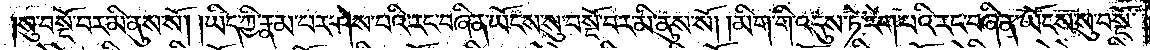སུ་བསྔོ་བར་མི་ནུས་སོ། །ཡིད་ཀྱི་རྣམ་པར་ཤེས་པའི་རང་བཞིན་ཡོངས་སུ་བསྔོ་བར་མི་ནུས་སོ། །མིག་གི་འདུས་ཏེ་རེག་པའི་རང་བཞིན་ཡོངས་སུ་བསྔོ་
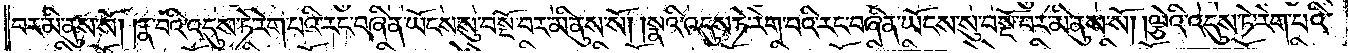བར་མི་ནུས་སོ། །རྣ་བའི་འདུས་ཏེ་རེག་པའི་རང་བཞིན་ཡོངས་སུ་བསྔོ་བར་མི་ནུས་སོ། །སྣའི་འདུས་ཏེ་རེག་པའི་རང་བཞིན་ཡོངས་སུ་བསྔོ་བར་མི་ནུས་སོ། །ལྕེའི་འདུས་ཏེ་རེག་པའི་
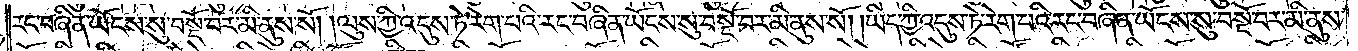རང་བཞིན་ཡོངས་སུ་བསྔོ་བར་མི་ནུས་སོ། །ལུས་ཀྱི་འདུས་ཏེ་རེག་པའི་རང་བཞིན་ཡོངས་སུ་བསྔོ་བར་མི་ནུས་སོ། །ཡིད་ཀྱི་འདུས་ཏེ་རེག་པའི་རང་བཞིན་ཡོངས་སུ་བསྔོ་བར་མི་ནུས་
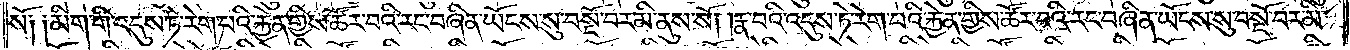སོ༑ ༑མིག་གི་འདུས་ཏེ་རེག་པའི་རྐྱེན་གྱིས་ཚོར་བའི་རང་བཞིན་ཡོངས་སུ་བསྔོ་བར་མི་ནུས་སོ། །རྣ་བའི་འདུས་ཏེ་རེག་པའི་རྐྱེན་གྱིས་ཚོར་བའི་རང་བཞིན་ཡོངས་སུ་བསྔོ་བར་མི་
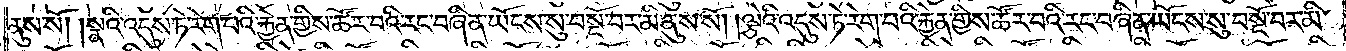ནུས་སོ། །སྣའི་འདུས་ཏེ་རེག་པའི་རྐྱེན་གྱིས་ཚོར་བའི་རང་བཞིན་ཡོངས་སུ་བསྔོ་བར་མི་ནུས་སོ། །ལྕེའི་འདུས་ཏེ་རེག་པའི་རྐྱེན་གྱིས་ཚོར་བའི་རང་བཞིན་ཡོངས་སུ་བསྔོ་བར་མི་
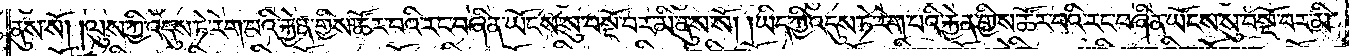ནུས་སོ། །ལུས་ཀྱི་འདུས་ཏེ་རེག་པའི་རྐྱེན་གྱིས་ཚོར་བའི་རང་བཞིན་ཡོངས་སུ་བསྔོ་བར་མི་ནུས་སོ། །ཡིད་ཀྱི་འདུས་ཏེ་རེག་པའི་རྐྱེན་གྱིས་ཚོར་བའི་རང་བཞིན་ཡོངས་སུ་བསྔོ་བར་མི་
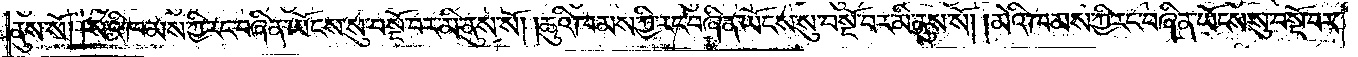ནུས་སོ། །སའི་ཁམས་ཀྱི་རང་བཞིན་ཡོངས་སུ་བསྔོ་བར་མི་ནུས་སོ། །ཆུའི་ཁམས་ཀྱི་རང་བཞིན་ཡོངས་སུ་བསྔོ་བར་མི་ནུས་སོ། །མེའི་ཁམས་ཀྱི་རང་བཞིན་ཡོངས་སུ་བསྔོ་བར་
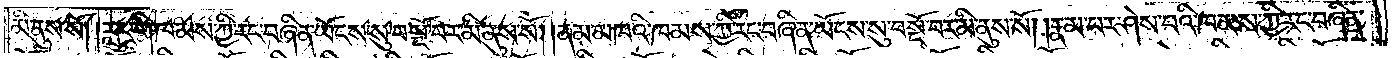མི་ནུས་སོ། །རླུང་གི་ཁམས་ཀྱི་རང་བཞིན་ཡོངས་སུ་བསྔོ་བར་མི་ནུས་སོ། །ནམ་མཁའི་ཁམས་ཀྱི་རང་བཞིན་ཡོངས་སུ་བསྔོ་བར་མི་ནུས་སོ། །རྣམ་པར་ཤེས་པའི་ཁམས་ཀྱི་རང་བཞིན་
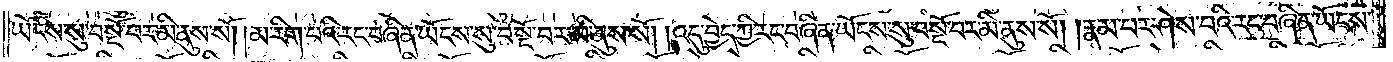ཡོངས་སུ་བསྔོ་བར་མི་ནུས་སོ། །མ་རིག་པའི་རང་བཞིན་ཡོངས་སུ་བསྔོ་བར་མི་ནུས་སོ། །འདུ་བྱེད་ཀྱི་རང་བཞིན་ཡོངས་སུ་བསྔོ་བར་མི་ནུས་སོ། །རྣམ་པར་ཤེས་པའི་རང་བཞིན་ཡོངས་
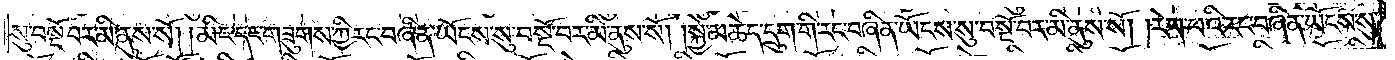སུ་བསྔོ་བར་མི་ནུས་སོ། །མིང་དང་གཟུགས་ཀྱི་རང་བཞིན་ཡོངས་སུ་བསྔོ་བར་མི་ནུས་སོ། །སྐྱེ་མཆེད་དྲུག་གི་རང་བཞིན་ཡོངས་སུ་བསྔོ་བར་མི་ནུས་སོ། །རེག་པའི་རང་བཞིན་ཡོངས་སུ་
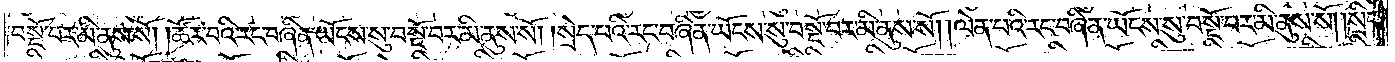བསྔོ་བར་མི་ནུས་སོ། །ཚོར་བའི་རང་བཞིན་ཡོངས་སུ་བསྔོ་བར་མི་ནུས་སོ། །སྲེད་པའི་རང་བཞིན་ཡོངས་སུ་བསྔོ་བར་མི་ནུས་སོ། །ལེན་པའི་རང་བཞིན་ཡོངས་སུ་བསྔོ་བར་མི་ནུས་སོ། །སྲིད་
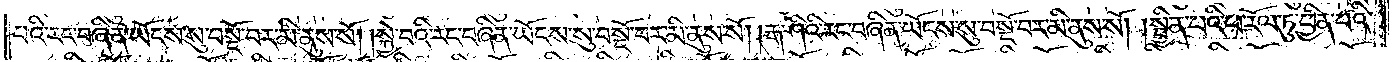པའི་རང་བཞིན་ཡོངས་སུ་བསྔོ་བར་མི་ནུས་སོ། །སྐྱེ་བའི་རང་བཞིན་ཡོངས་སུ་བསྔོ་བར་མི་ནུས་སོ། །རྒ་ཤིའི་རང་བཞིན་ཡོངས་སུ་བསྔོ་བར་མི་ནུས་སོ། །སྦྱིན་པའི་ཕ་རོལ་ཏུ་ཕྱིན་པའི་
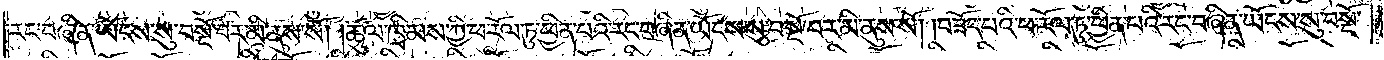རང་བཞིན་ཡོངས་སུ་བསྔོ་བར་མི་ནུས་སོ། །ཚུལ་ཁྲིམས་ཀྱི་ཕ་རོལ་ཏུ་ཕྱིན་པའི་རང་བཞིན་ཡོངས་སུ་བསྔོ་བར་མི་ནུས་སོ། །བཟོད་པའི་ཕ་རོལ་ཏུ་ཕྱིན་པའི་རང་བཞིན་ཡོངས་སུ་བསྔོ་
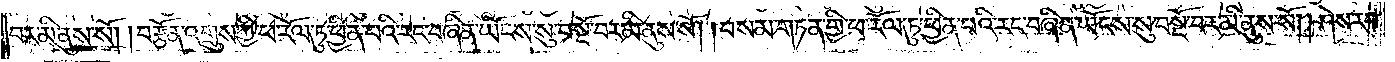བར་མི་ནུས་སོ། །བརྩོན་འགྲུས་ཀྱི་ཕ་རོལ་ཏུ་ཕྱིན་པའི་རང་བཞིན་ཡོངས་སུ་བསྔོ་བར་མི་ནུས་སོ། །བསམ་གཏན་གྱི་ཕ་རོལ་ཏུ་ཕྱིན་པའི་རང་བཞིན་ཡོངས་སུ་བསྔོ་བར་མི་ནུས་སོ། །ཤེས་རབ་
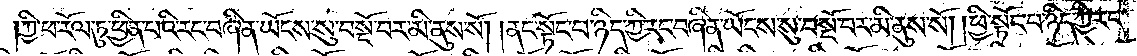ཀྱི་ཕ་རོལ་ཏུ་ཕྱིན་པའི་རང་བཞིན་ཡོངས་སུ་བསྔོ་བར་མི་ནུས་སོ། །ནང་སྟོང་པ་ཉིད་ཀྱི་རང་བཞིན་ཡོངས་སུ་བསྔོ་བར་མི་ནུས་སོ། །ཕྱི་སྟོང་པ་ཉིད་ཀྱི་རང་
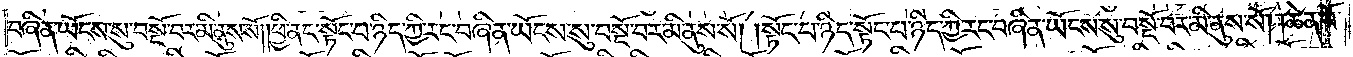བཞིན་ཡོངས་སུ་བསྔོ་བར་མི་ནུས་སོ། །ཕྱི་ནང་སྟོང་པ་ཉིད་ཀྱི་རང་བཞིན་ཡོངས་སུ་བསྔོ་བར་མི་ནུས་སོ། །སྟོང་པ་ཉིད་སྟོང་པ་ཉིད་ཀྱི་རང་བཞིན་ཡོངས་སུ་བསྔོ་བར་མི་ནུས་སོ། །ཆེན་པོ་
